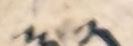༣༢
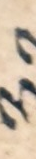༣༢
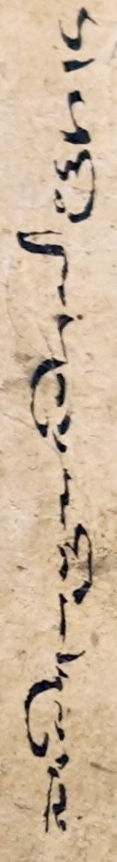ལམ་ལེགས་ཕྱུག་འཕེལ་མི་བརྒྱུད་དར།
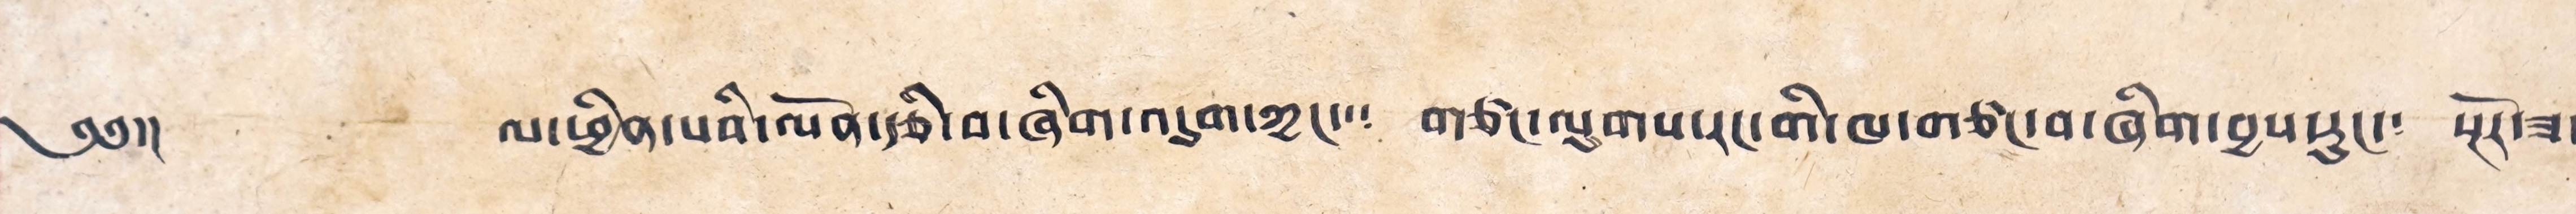༄༅།། ལ་ཕྱིན་པའི་ལོན་རྩི་བ་ཞིག་འདུག་ཀྱང་་༴ གཙང་ལུགས་རང་གི་ཁ་གཙང་བ་ཞིག་བྱས་རུང་༴ སྔོར་ཟ་
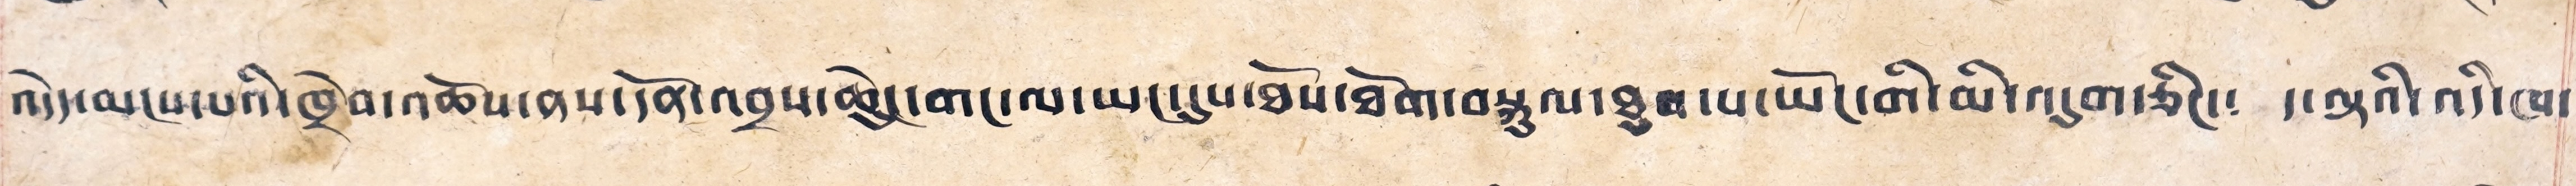འདོད་མངས་པའི་ཁྲེབ་འཆོས་ནས་དོན་འབྲས་ཆེུང་གང་ལ་ཡང་དུས་ཐོས་ཐོག་བསྐུལ་ཐབ་པ་ཡོང་གི་མི་འདུག་ཅིང་༴ ད་ལྟའི་འདི་ཁ་
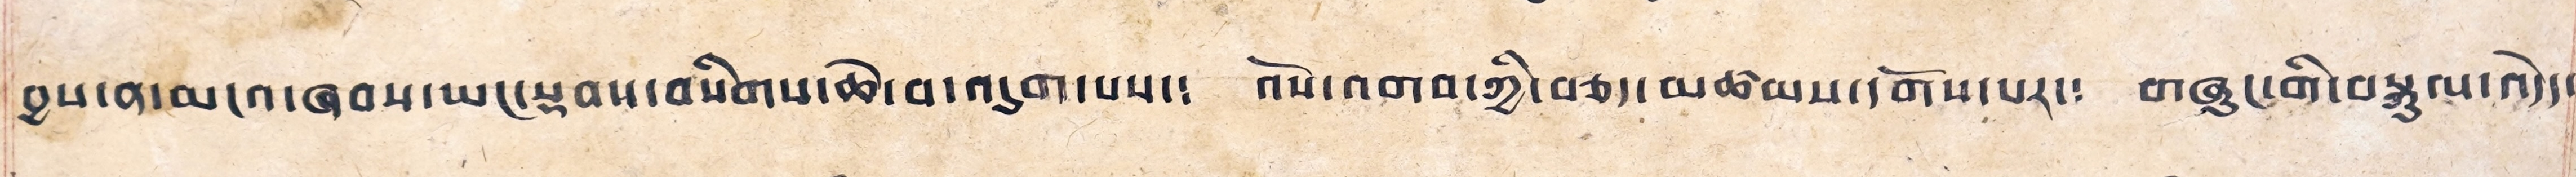བྱས་ན་མངའ་ཞབས་ཡང་སྡབས་བསིགས་ཆེ་བ་འདུག་པས་༴ འོས་འགབ་ཀྱི་བཅད་མཚམས་དགོས་པར་༴ གཞུང་གི་བསྐུལ་འདོད་
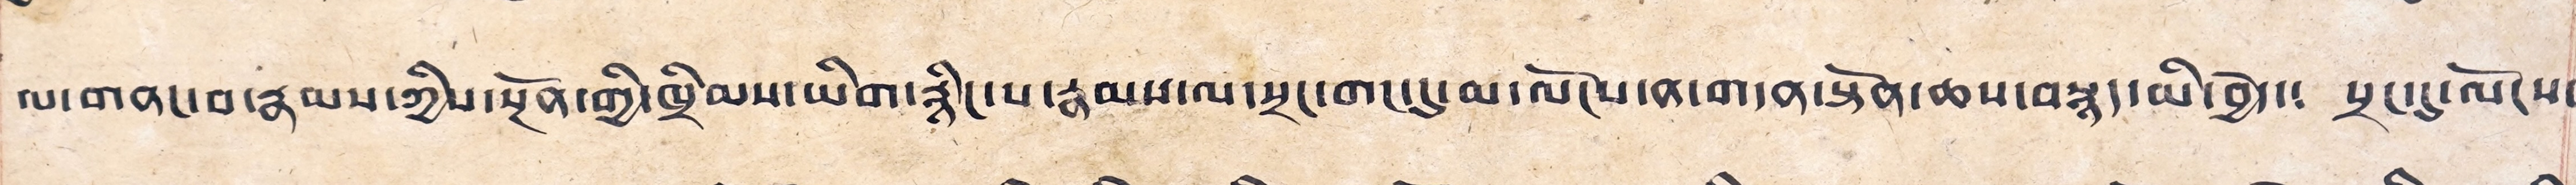ལ་གནང་བ་རྣམས་ཀྱིས་སྔོན་གྱི་ཁྲིམས་ཡིག་རྙིང་པ་རྣམས་ལ་སྲང་གང་དུ་མ་ལོངས་ན་གདན་སྟོན་ཆས་བསྙད་མི་བྱེད་༴ སྲང་དུ་ལོངས་
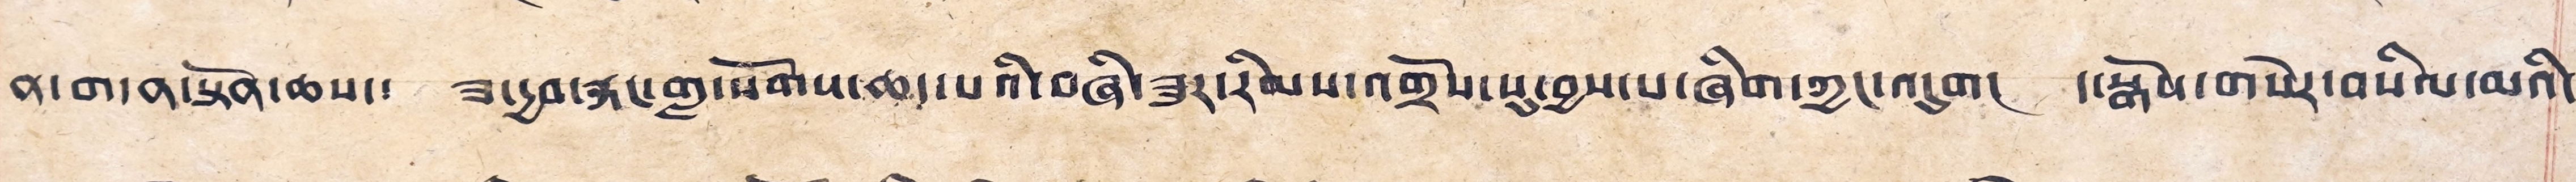ན་གནད་སྟོན་ཆས་༴ ཟ་དྱབ་རྐང་གླ་སོགས་ཆད་པའི་བཞི་ཟུར་རིམས་འགྲོས་སུ་བྱས་པ་ཞིག་ཀྱང་འདུག། ད་སྒོས་གསེར་བསིལ་མའི་
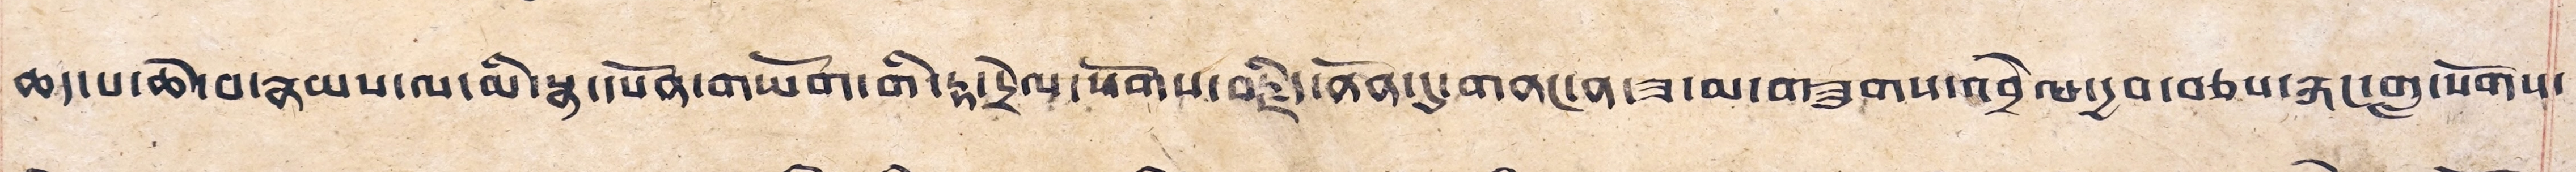ཆད་པ་ཆེ་བ་རྣམས་ལ་མི་སྣ་དཔོན་གཡོག་གི་རྟ་དྲེལ་སོགས་བརྗིད་ནོན་དུ་གནང་ན་ཟ་མ་གཟུགས་འབྲེལ་དྱབ་བཅས་རྐང་གླ་སོགས་
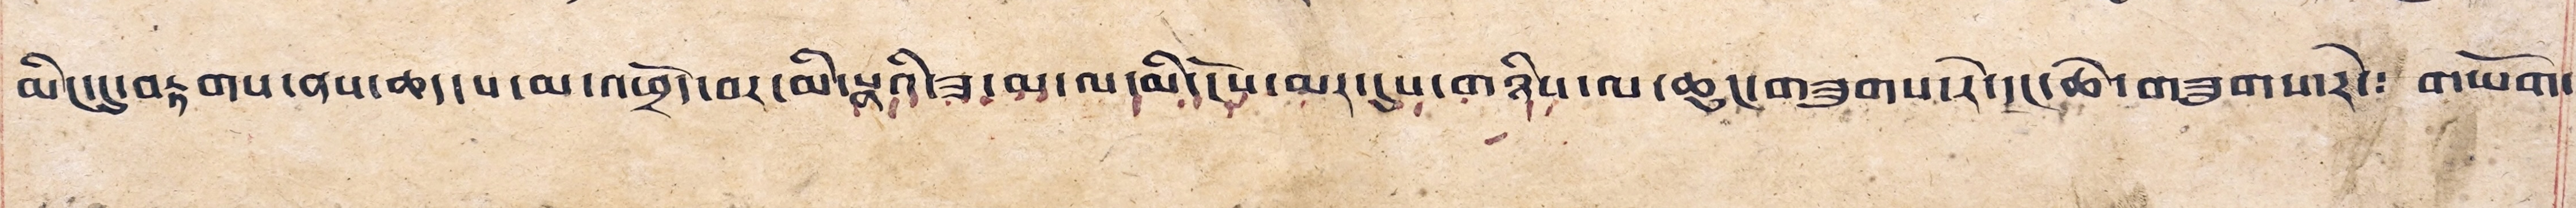མིང་དུ་བརྟགས་ནས་ཆད་པ་མ་འཕྲོད་བར་མི་སྣའི་ཟ་མ་ལ་མི་དོས་མར་དུས་གཉིས་ལ་ཆུང་གཟུགས་རེ་དང་ཆེ་གཟུགས་རེ་༴ གཡོག་
